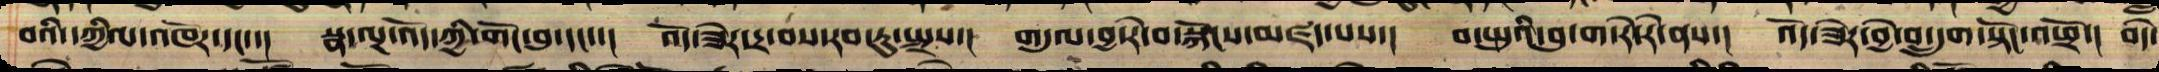བའི་དཀྱིལ་འཁོར་དང་་། སྣ་ལྔ་འོད་ཀྱི་གང་བུ་དང་་། འོད་ཟེར་དྲ་བས་རབ་ཏུ་སྤྲས་། གདུལ་བྱའི་རེ་བ་བསྐང་མཛད་པས་། བ་སྤུའི་བུ་ག་རེ་རེ་ནས་། འོད་ཟེར་བྱེ་བ་དྲུག་སྟོང་འཕྲོ་། བདེ་
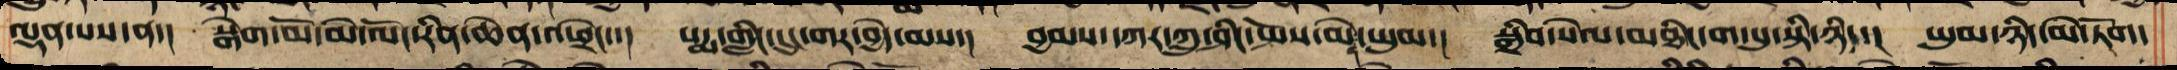ལྡན་པས་ན་། སྒེག་མོ་མེ་ལོང་རིན་ཆེན་འཕྲེང་་། པདྨ་གླིང་དུང་གར་བྱེད་མས་། བྱམས་དཀར་ཀླུ་ཤིང་སྤོས་མེ་ཡུམ་། སྒྲིབ་སེལ་མཐིང་ག་པུསྡི་ཉིད་། ཡུམ་ཉིད་མེ་ཏོག་
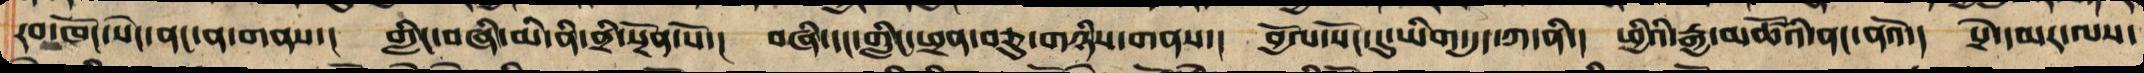རབ་ཁོང་སེང་ནང་ན་གནས་། གླིང་བཞི་མི་ནི་ནྲྀ་སྔོན་པོ་། བཞི་དང་གླིང་ཕྲན་བཅུ་གཉིས་གནས་། བྱོལ་སོང་དུ་ཡིག་དུད་ཀ་ནི་། ཕྱི་ཡི་རྒྱ་མཚོའི་ནང་ནའོ་། པྲེ་དམར་ལས་
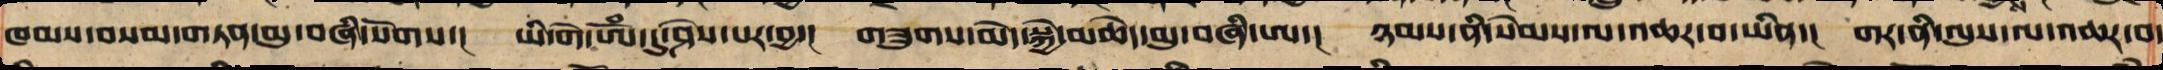ཁམས་བསམ་གཏན་མུ་བཞི་སོགས་། ཡི་གེ་ཨཱོཾ་དུ་ཤེས་པར་བྱ་། གཟུགས་མེད་སྐྱེ་མཆེད་མུ་བཞི་ཨ་། ཉམས་ནི་སེམས་ལ་འཆར་བ་ཡིན་། གར་ནི་ལུས་ལ་འཆར་བ་
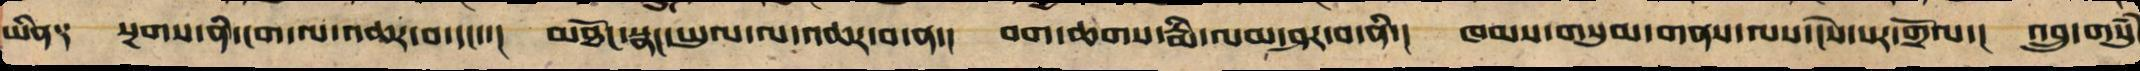ཡིན༑ སྔགས་ནི་ངག་ལ་འཆར་བ་དང་་། མཐོང་སྣང་ཡུལ་ལ་འཆར་བ་ལ་། བག་ཆགས་རྨི་ལམ་ཤར་བ་ནི་། ཁམས་གསུམ་གནས་ལས་ངེས་པར་གྲོལ་། འབྲུ་གསུཾ་
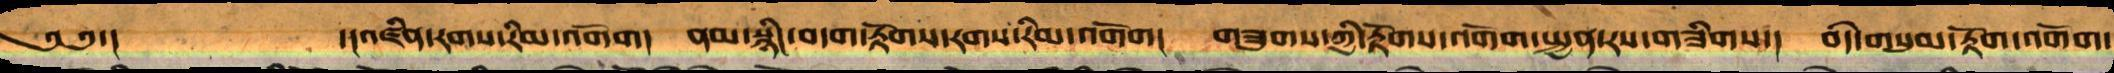༄༅་། ་།འཛིན་རགས་རིམ་འགོག། ནམ་སྙིང་བདག་རྟོག་རགས་རིམ་འགོག། གཟུགས་ཀྱི་རྟོག་འགོག་སྤྱན་རས་གཟིགས་། བདེ་གསུམ་རྟོག་འགོག་
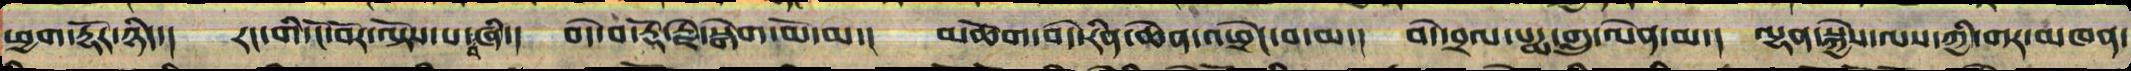ཕྱག་རྡོར་ཉིད་། རང་གི་ངོ་བོར་ལྟོས་པ་བཞི་། བདེ་བ་རྡོ་རྗེ་སྒེག་མོ་མ་། མཆོག་བདེ་རིན་ཆེན་ཕྲེང་བ་མ་། བདེ་བྲལ་པདྨ་གླུ་ལེན་མ་། ལྷན་སྐྱེས་ལས་ཀྱི་གར་མཁན་
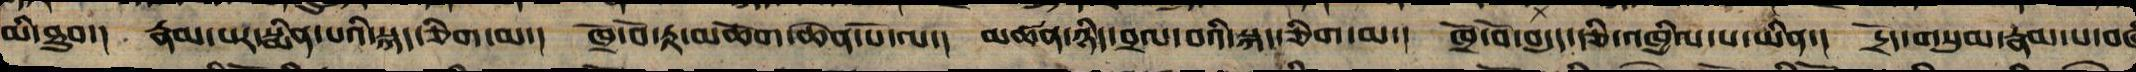མི་ཐུབ་། རྣམ་པར་སྨིན་པའི་སྐད་ཅིག་མ་། ཁྲོ་བོ་རྟ་མཆོག་ཆེན་པོ་ལ་། མཚན་ཉིད་བྲལ་བའི་སྐད་ཅིག་མ་། ཁྲོ་བོ་བདུད་རྩི་འཁྱིལ་པ་ཡིན་། དྲོད་གསུམ་རྣམ་པ་བཞི
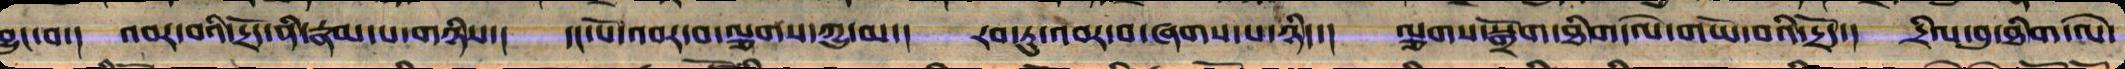བྱུང་བ་། འབར་བའི་དྲོད་ནི་རྣམ་པ་གཉིས་། དང་པོ་འབར་བ་ལྕགས་ཀྱུ་མ་། རབ་ཏུ་འབར་བ་ཞགས་པ་ཉིད་། ལྕགས་སྒྲོག་ཐིག་ལེ་གཡོ་བའི་དྲོད་། དྲིལ་བུ་ཐིག་ལེ་
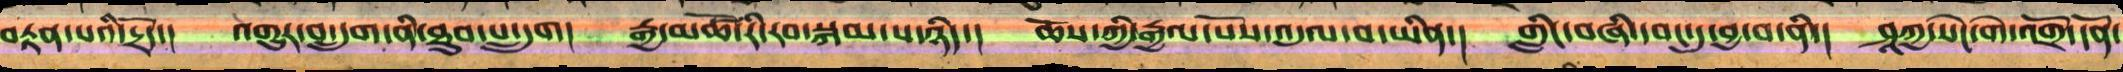བརྟན་པའི་དྲོད་། འགྱུར་བ་དྲུག་ནི་ཐུབ་པ་དྲུག། རྒྱ་མཚོ་རི་རབ་སྐམ་པ་ཉིད་། ཆོས་ཀྱི་རྒྱལ་པོས་འདུལ་བ་ཡིན་། གླིང་བཞི་དབང་དུ་བྱ་བ་ནི་། ཤཱཀྱ་སེང་གེ་འགྲོ་དོན་
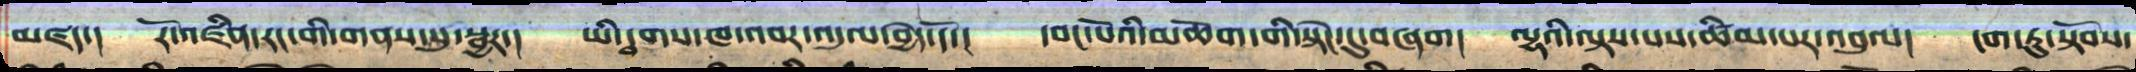མཛད་། རོ་འཛིན་རང་གི་གནས་སུ་སྦྱར་། ཡི་དྭགས་ཁ་འབར་འདུལ་བྱེད་དོ་། དབང་པོའི་མཆོག་ནི་སྟེང་དུ་བཞག། ལྷའི་བལྟས་པས་ཚིམ་པ་འབུལ། ངག་ཏུ་སྟོབས་
